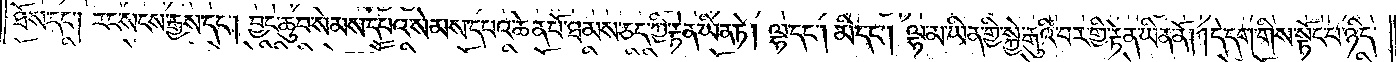ཐོས་དང༌། རང་སངས་རྒྱས་དང༌། བྱང་ཆུབ་སེམས་དཔའ་སེམས་དཔའ་ཆེན་པོ་ཐམས་ཅད་ཀྱི་རྟེན་ཡིན་ཏེ། ལྷ་དང༌། མི་དང༌། ལྷ་མ་ཡིན་གྱི་སྐྱེ་རྒུའི་བར་གྱི་རྟེན་ཡིན་ནོ། །དེ་དག་གིས་སྟོང་པ་ཉིད་
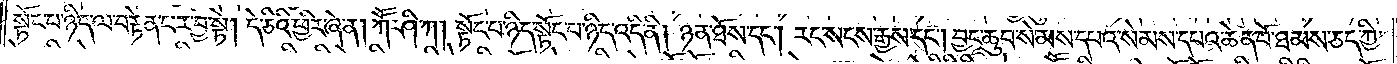སྟོང་པ་ཉིད་ལ་བརྟེན་པར་བྱ་སྟེ། དེ་ཅིའི་ཕྱིར་ཞེ་ན། ཀཽ་ཤི་ཀ། སྟོང་པ་ཉིད་སྟོང་པ་ཉིད་འདི་ནི། ཉན་ཐོས་དང༌། རང་སངས་རྒྱས་དང༌། བྱང་ཆུབ་སེམས་དཔའ་སེམས་དཔའ་ཆེན་པོ་ཐམས་ཅད་ཀྱི་
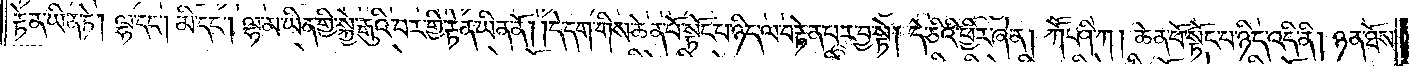རྟེན་ཡིན་ཏེ། ལྷ་དང༌། མི་དང༌། ལྷ་མ་ཡིན་གྱི་སྐྱེ་རྒུའི་བར་གྱི་རྟེན་ཡིན་ནོ། །དེ་དག་གིས་ཆེན་པོ་སྟོང་པ་ཉིད་ལ་བརྟེན་པར་བྱ་སྟེ། དེ་ཅིའི་ཕྱིར་ཞེ་ན། ཀཽ་ཤི་ཀ། ཆེན་པོ་སྟོང་པ་ཉིད་འདི་ནི། ཉན་ཐོས་
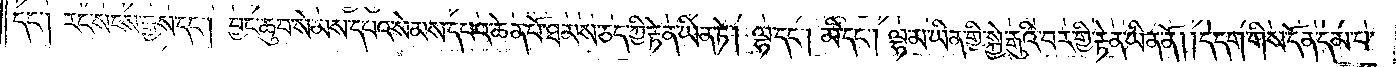དང༌། རང་སངས་རྒྱས་དང༌། བྱང་ཆུབ་སེམས་དཔའ་སེམས་དཔའ་ཆེན་པོ་ཐམས་ཅད་ཀྱི་རྟེན་ཡིན་ཏེ། ལྷ་དང༌། མི་དང༌། ལྷ་མ་ཡིན་གྱི་སྐྱེ་རྒུའི་བར་གྱི་རྟེན་ཡིན་ནོ། །དེ་དག་གིས་དོན་དམ་པ་
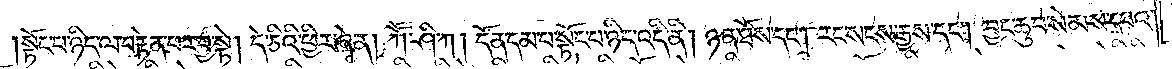སྟོང་པ་ཉིད་ལ་བརྟེན་པར་བྱ་སྟེ། དེ་ཅིའི་ཕྱིར་ཞེ་ན། ཀཽ་ཤི་ཀ། དོན་དམ་པ་སྟོང་པ་ཉིད་འདི་ནི། ཉན་ཐོས་དང༌། རང་སངས་རྒྱས་དང༌། བྱང་ཆུབ་སེམས་དཔའ་
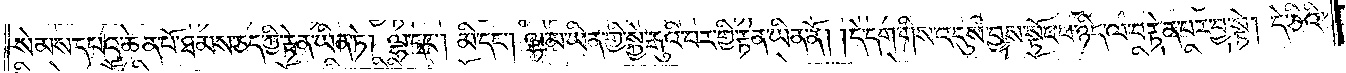སེམས་དཔའ་ཆེན་པོ་ཐམས་ཅད་ཀྱི་རྟེན་ཡིན་ཏེ། ལྷ་དང༌། མི་དང༌། ལྷ་མ་ཡིན་གྱི་སྐྱེ་རྒུའི་བར་གྱི་རྟེན་ཡིན་ནོ༎ དེ་དག་གིས་འདུས་བྱས་སྟོང་པ་ཉིད་ལ་བརྟེན་པར་བྱ་སྟེ། དེ་ཅིའི་
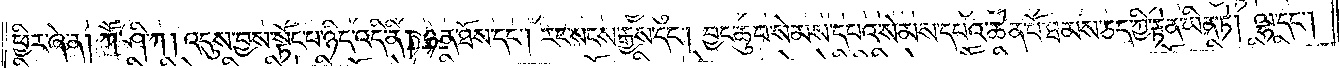ཕྱིར་ཞེ་ན། ཀཽ་ཤི་ཀ། འདུས་བྱས་སྟོང་པ་ཉིད་འདི་ནི། ཉན་ཐོས་དང༌། རང་སངས་རྒྱས་དང༌། བྱང་ཆུབ་སེམས་དཔའ་སེམས་དཔའ་ཆེན་པོ་ཐམས་ཅད་ཀྱི་རྟེན་ཡིན་ཏེ། ལྷ་དང༌།
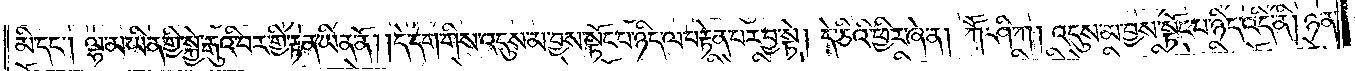མི་དང༌། ལྷ་མ་ཡིན་གྱི་སྐྱེ་རྒུའི་བར་གྱི་རྟེན་ཡིན་ནོ། །དེ་དག་གིས་འདུས་མ་བྱས་སྟོང་པ་ཉིད་ལ་བརྟེན་པར་བྱ་སྟེ། དེ་ཅིའི་ཕྱིར་ཞེ་ན། ཀཽ་ཤི་ཀ། འདུས་མ་བྱས་སྟོང་པ་ཉིད་འདི་ནི། ཉན་
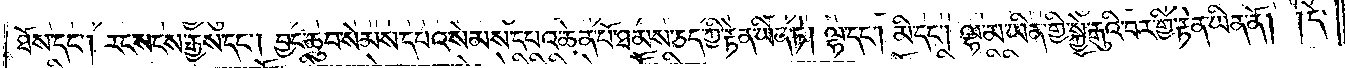ཐོས་དང༌། རང་སངས་རྒྱས་དང༌། བྱང་ཆུབ་སེམས་དཔའ་སེམས་དཔའ་ཆེན་པོ་ཐམས་ཅད་ཀྱི་རྟེན་ཡིན་ཏེ། ལྷ་དང༌། མི་དང༌། ལྷ་མ་ཡིན་གྱི་སྐྱེ་རྒུའི་བར་གྱི་རྟེན་ཡིན་ནོ། །དེ་
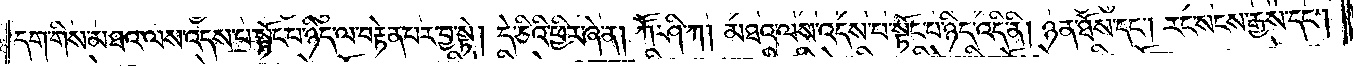དག་གིས་མཐའ་ལས་འདས་པ་སྟོང་པ་ཉིད་ལ་བརྟེན་པར་བྱ་སྟེ། དེ་ཅིའི་ཕྱིར་ཞེ་ན། ཀཽ་ཤི་ཀ། མཐའ་ལས་འདས་པ་སྟོང་པ་ཉིད་འདི་ནི། ཉན་ཐོས་དང༌། རང་སངས་རྒྱས་དང༌།
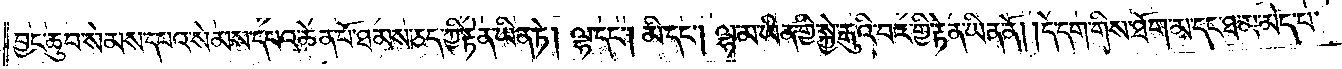བྱང་ཆུབ་སེམས་དཔའ་སེམས་དཔའ་ཆེན་པོ་ཐམས་ཅད་ཀྱི་རྟེན་ཡིན་ཏེ། ལྷ་དང༌། མི་དང༌། ལྷ་མ་ཡིན་གྱི་སྐྱེ་རྒུའི་བར་གྱི་རྟེན་ཡིན་ནོ། །དེ་དག་གིས་ཐོག་མ་དང་ཐ་མ་མེད་པ་
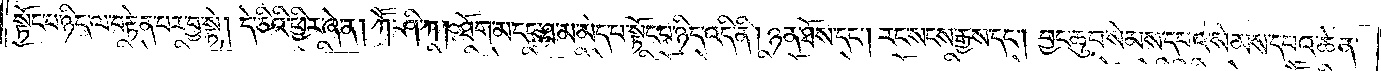སྟོང་པ་ཉིད་ལ་བརྟེན་པར་བྱ་སྟེ། དེ་ཅིའི་ཕྱིར་ཞེ་ན། ཀཽ་ཤི་ཀ། ཐོག་མ་དང་ཐ་མ་མེད་པ་སྟོང་པ་ཉིད་འདི་ནི། ཉན་ཐོས་དང༌། རང་སངས་རྒྱས་དང༌། བྱང་ཆུབ་སེམས་དཔའ་སེམས་དཔའ་ཆེན་
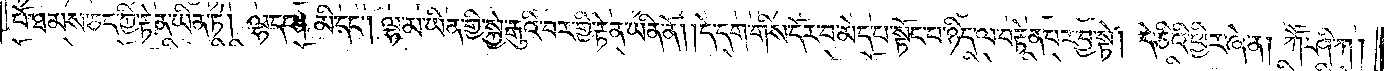པོ་ཐམས་ཅད་ཀྱི་རྟེན་ཡིན་ཏེ། ལྷ་དང༌། མི་དང༌། ལྷ་མ་ཡིན་གྱི་སྐྱེ་རྒུའི་བར་གྱི་རྟེན་ཡིན་ནོ། །དེ་དག་གིས་དོར་བ་མེད་པ་སྟོང་པ་ཉིད་ལ་བརྟེན་པར་བྱ་སྟེ། དེ་ཅིའི་ཕྱིར་ཞེ་ན། ཀཽ་ཤི་ཀ།
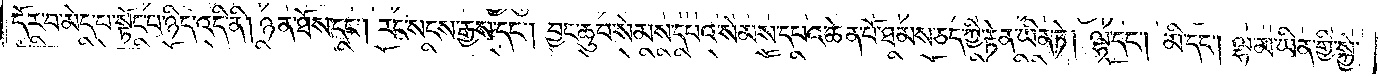དོར་བ་མེད་པ་སྟོང་པ་ཉིད་འདི་ནི། ཉན་ཐོས་དང༌། རང་སངས་རྒྱས་དང༌། བྱང་ཆུབ་སེམས་དཔའ་སེམས་དཔའ་ཆེན་པོ་ཐམས་ཅད་ཀྱི་རྟེན་ཡིན་ཏེ། ལྷ་དང༌། མི་དང༌། ལྷ་མ་ཡིན་གྱི་སྐྱེ་
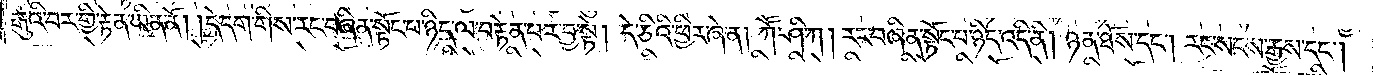རྒུའི་བར་གྱི་རྟེན་ཡིན་ནོ། །དེ་དག་གིས་རང་བཞིན་སྟོང་པ་ཉིད་ལ་བརྟེན་པར་བྱ་སྟེ། དེ་ཅིའི་ཕྱིར་ཞེ་ན། ཀཽ་ཤི་ཀ། རང་བཞིན་སྟོང་པ་ཉིད་འདི་ནི། ཉན་ཐོས་དང༌། རང་སངས་རྒྱས་དང༌།
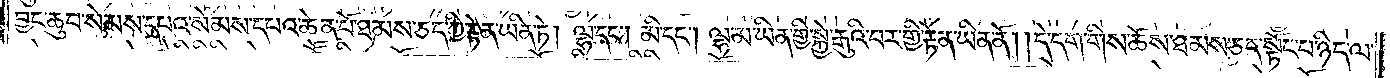བྱང་ཆུབ་སེམས་དཔའ་སེམས་དཔའ་ཆེན་པོ་ཐམས་ཅད་ཀྱི་རྟེན་ཡིན་ཏེ། ལྷ་དང༌། མི་དང༌། ལྷ་མ་ཡིན་གྱི་སྐྱེ་རྒུའི་བར་གྱི་རྟེན་ཡིན་ནོ། །དེ་དག་གིས་ཆོས་ཐམས་ཅད་སྟོང་པ་ཉིད་ལ་
